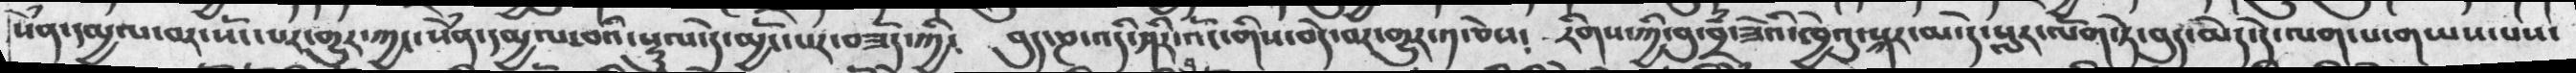སེཾན་དམྱལ་བར་སོང་པར་གྱུར་ཀྱང་སེཾན་དམྱལ་བའི་སྡུལ་དེ་མྱོང་པར་བཟོད་ཀྱི༴   བུད་ཎ་འདི་ཤིར་འོང་གིས་བདེ་བར་གྱུར་༡་ཅེས༴   རིགས་ཀྱི་བུ་བྲཾ་ཟེའི་ཁྱེའུ་སྐར་བ་དེ་སླར་ལོག་ཏེ་བུད་མེད་དེ་ལག་གཡས་པས་
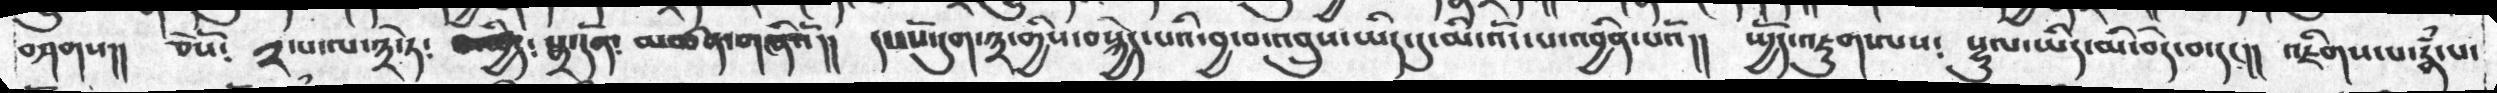བཤགས་།།  ཅེསོ༴   ༢་པ་ལ་༣་ཏེ༴  མཚྱིད༴ སྒྲ་དོན༴   མཚན་གཞིའོ།།  དང་པོ་དུག་༣་གྱིས་བསྐྱེད་པའི་བྱ་བ་འབྲུས་ཡིད་དུ་མི་འོང་པ་འབྱིན་པའོ།།    ཡྱོད་འཇུག་ལས༴   སྡུལ་ཡིད་མི་བདེ་བ་དང།།  འཇིགས་པ་རྣཾ་པ་
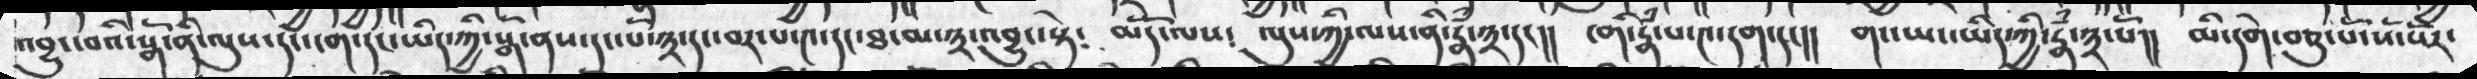འབྱུང་བའི་སྒོ་ནི་ལུས་དང་ངག་དང་ཡིད་ཀྱི་སྒོ་ནས་དང་པོ་༣་དང་བར་པ་༤་དང་ཐ་མ་༣་འབྱུང་སྟེ༴   མདོ་ལས༴  ལུས་ཀྱི་ལས་ནི་རྣཾ་༣་དང།།    ངགི་རྣཾ་པ་༤་དག་དང།།   གང་ཡང་ཡིད་ཀྱི་རྣཾ་༣་པོ།།   མི་དགེ་བཅུ་པོ་སོ་སོར་
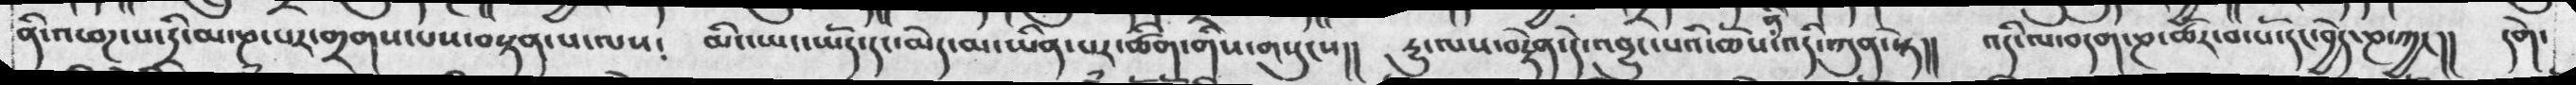ནི་འཕཌ་པ་དྲི་མ་ཎ་པར་གྲགས་པས་བསྟན་པ་ལས༴   མི་ཡང་ཡོད་དང་མེད་མ་ཡིན་པར་ཚིག་གིས་གསུངས།།   རྱུ་ལས་བརྟེན་དེ་འབྱུང་པའི་ཆོས་ནི་འདི་ཀུན་སྟེ།།   འདི་ལ་བདག་ཎ་ཚོར་བ་པོ་དང་བྱེད་ཎ་ཀྱང།།  དགེ་
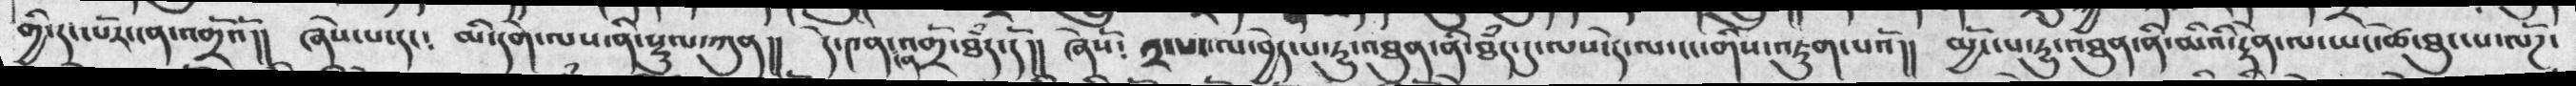གྱི་དང་པོར་ངན་འགྲོའ།།   ཞེས་པ་དང༴    མི་དགེ་ལས་ནི་སྡུལ་ཀུན།།   དེ༤ན་ངན་འགྲོ་ཐཾད་དོ།།  ཞེསོ༴   ༢་པ་ལ་བྱེད་པ་ཏུ་འཐུན་ནི་ཐཾད་དུ་ལས་དེ་ལ་ངང་གིས་འཇུག་པའོ།།  མྱོང་པ་རྱུ་མཐུན་ནི་མིའི་རྟེན་ལ་ཡང་ཚེ་ཐུང་པ་ལོཌ་
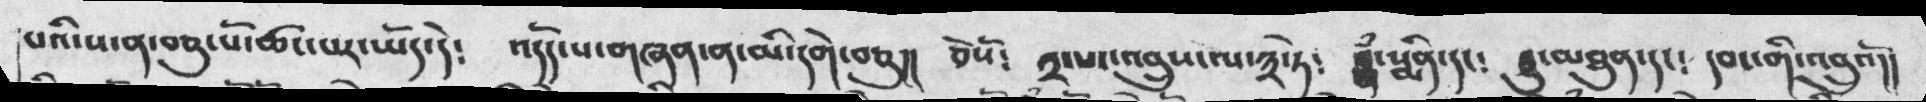པའི་ས་ན་བཅུ་པོ་ཚང་པར་ཡོད་དེ༴   འདོད་པ་གཞན་ན་མི་དགེ་བཅུ།།   ཅེསོ༴   ༢པར་འབྲུས་ལ་༣་ཏེ༴    རྣཾ་སྨིན་དང༴  དྱུ་མཐུན་དང༴  དབང་གི་འབྲུའོ།།
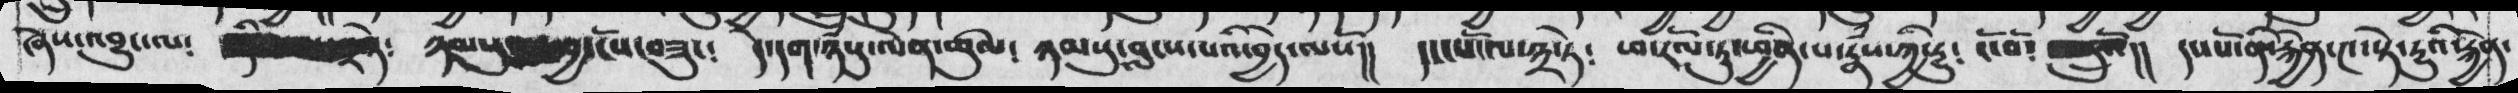ཞེས་འབྱུང་ལ༴  འདི་ལ་ཡང་༣་སྟེ༴  ཉམས་སུ་བླང་བྱ་ངོས་བཟུང༴  དེ་དག་ཉཾསུ་ལེན་ཚུལ༴   ཉམསུ་བླངས་པའི་བྱེད་ལསོ།།  དང་པོ་༣་ཏེ༴  ཕ་རོལ་ཏུ་ཕྱིན་པ་རྣཾས་ཀྱ་དྱུ༴   ངོ་བོ༴  འབྲུའོ།།  དང་ནི་རྐྱེན་༤་སྟེ་དྱུའི་རྐྱེན་
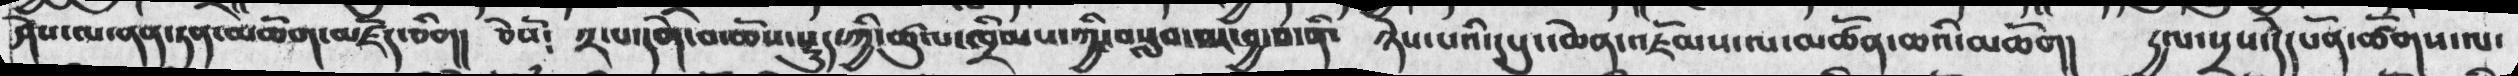ཤེས་ལ་ནན་ཏན་མཆོག་མཛོད་ཅིག།།   ཅེས༴  ༢་པ་དགེ་བ་ཆོས་སྡུད་ཀྱི་ཚུལ་ཁྲིམས་ཀྱི་བསླབ་བར་བྱ་བ་ནི་   ཉེས་པའི་དཔུང་ཆེན་འཇོམས་ལ་མཚོན་ཆའི་མཆོག།   དྱལ་སྲས་དེདཔོན་ཚོགས་ལ་
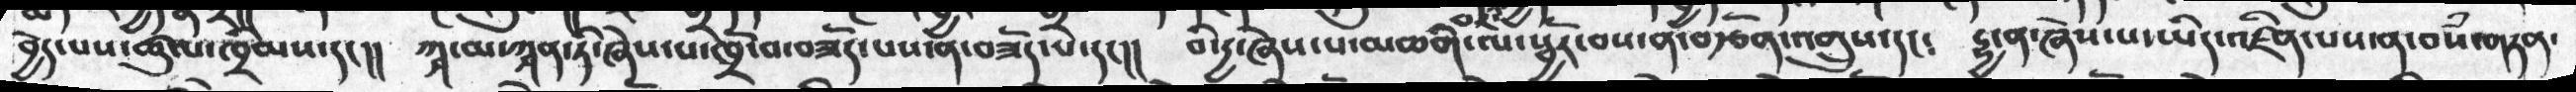བྱེད་པས་ཚུལ་ཁྲིམས་དང།།   ཀྴ་མ་ཀྴན་ཏི་ཞེས་པ་ཁྲོ་བ་བཟོད་པས་ན་བཟོད་པ་དང་།།  བི་དྱ་ཞེས་པ་མཆགི་ལ་སྦྱོར་བས་ན་བརྩོན་འགྲུས་དང༴   དྷྱ་ན་ཞེས་པ་ཡིད་འཛིན་པས་ན་བསཾ་གཏན་
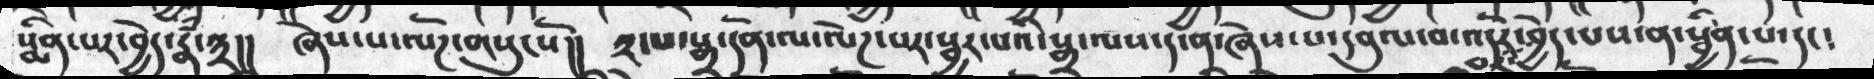སྨིན་པར་བྱེད་རྣཾ་༣།།   ཞེས་པ་ལོཌ་གསུངསོ།།   ༢་པ་སྒྲ་དོན་ལ་ལེཌ་པར་སྦྱར་པའི་སྒྲ་ལས་ད་ན་ཞེས་པ་དབུལ་བ་འདོར་བར་བྱེད་པས་ན་སྦྱིན་པ་དང༴
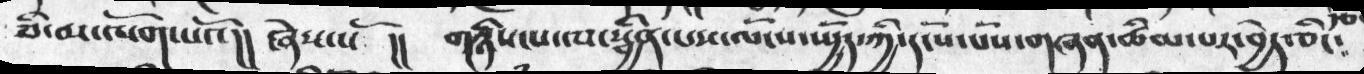ཅི་མ་ལོག་པའོ།།    ཞེས་སོ  །།  གཉིས་པ་ལ་སྦྱིན་པས་ལོངས་ཡྱོད་ཀྱི་དངོས་པོས་གཞན་ཚིམ་པར་བྱེད་ཅིང་ རྩ
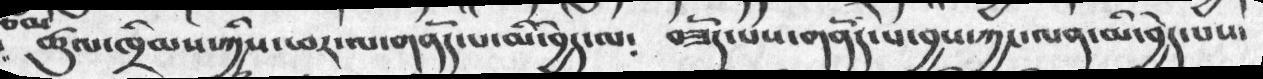ཚུལ་ཁྲིམས་ཀྱིས་ཕར་ལ་གནོད་པ་མི་བྱེད་ལ༴    བཟོད་པས་གནོད་པ་བྱས་ཀྱང་ལན་མི་བྱེད་པས་
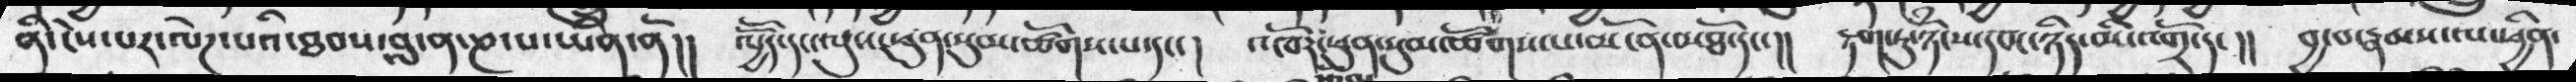ནི་ངེས་པར་ལེཌ་པའི་ཐབས་བླ་ན་ཎ་པ་ཡིན་ནོ།།    ལྱོོད་དང་ལུས་ཕུན་སུམས་ཚོགས་པ་དང་།  འཁོར་ཕུན་སུམ་ཚོགས་པ་མངོན་མཐོ་དང་།།   རྟག་ཏུ་ཉོངས་དབང་ཉིད་མི་འགྲོ་དང །།  བྱ་བ་རྣམས་ལས་ཕྱིན་
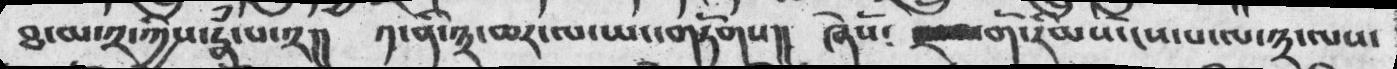ཐ་མ་༢་ཀྱིས་རྣཾ་པ་༢།།   ༡་ནི་༣་ཆར་ལ་ཡང་གཏོགས།།   ཞེསོ༴   ༢་པ་གོ་རིམས་ངེས་པ་ལ་༣་ལས་
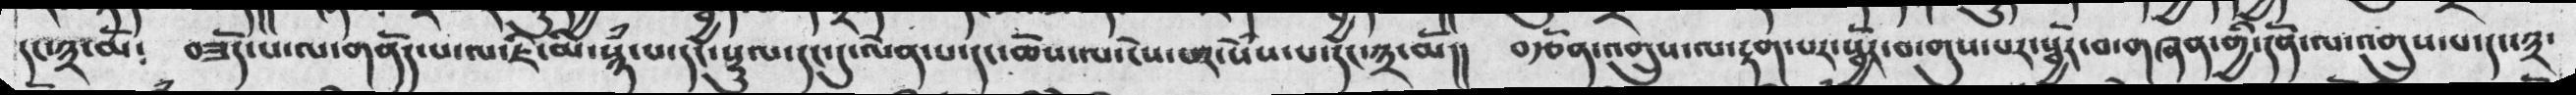དང་༣་མོ༴   བཟོད་པ་ལ་གནོད་པ་ལ་ཇི་མི་སྙཾ་པ་དང་སྡུལ་དང་དུ་ལེན་པ་དང་ཆོས་ལ་ངེས་པར་སེཾས་པ་དང་༣་མོ།།   བརྩོན་འགྲུས་ལ་རྟག་པར་སྦྱོར་བ་གུས་པར་སྦྱོར་བ་གཞན་གྱི་དོན་ལ་འགྲུས་པ་དང་༣་
